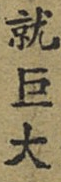就巨大
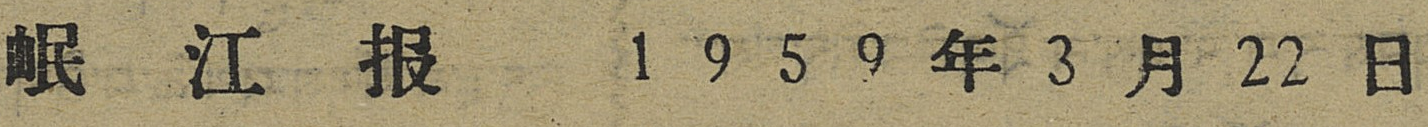岷 江 报 1 9 5 9 年 3 月 22 日
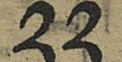༢༢
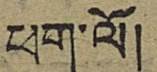ཕག་ལོ།
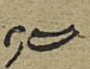༡༤
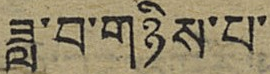ཟླ་བ་གཉིས་པ་
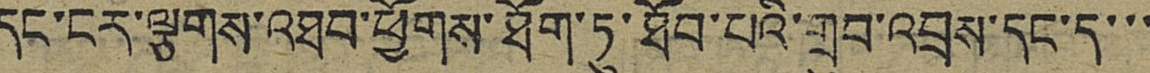དང་ངར་ལྕགས་འཐབ་ཕྱོགས་ཐོག་ཏུ་ཐོབ་པའི་གྲུབ་འབྲས་དང་ད་་་
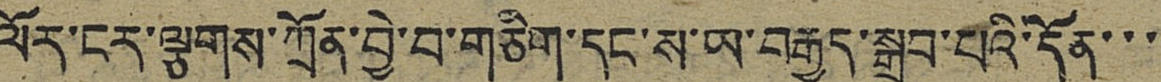ལོར་ངར་ལྕགས་ཀྲོན་བྱེ་བ་གཅིག་དང་ས་ཡ་བརྒྱད་སྒྲུབ་པའི་དོན་་་
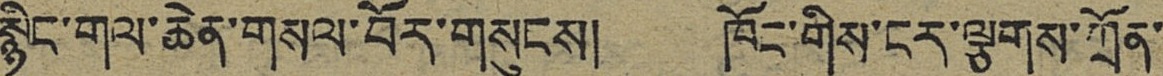སྙིང་གལ་ཆེན་གསལ་བོར་གསུངས། ཁོང་གིས་ངར་ལྕགས་ཀྲོན་
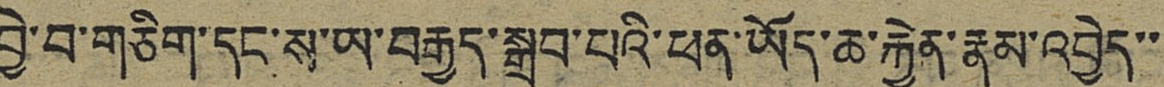བྱེ་བ་གཅིག་དང་ས་ཡ་བརྒྱད་སྒྲུབ་པའི་ཕན་ཡོད་ཆ་རྐྱེན་རྣམ་འབྱེད་་
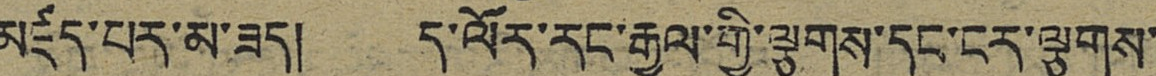མཛད་པར་མ་ཟད། ད་ལོར་རང་རྒྱལ་གྱི་ལྕགས་དང་ངར་ལྕགས་
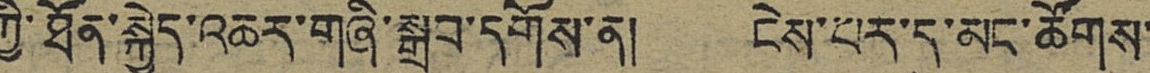ཀྱི་ཐོན་སྐྱེད་འཆར་གཞི་སྒྲུབ་དགོས་ན། ངེས་པར་དུ་མང་ཚོགས་
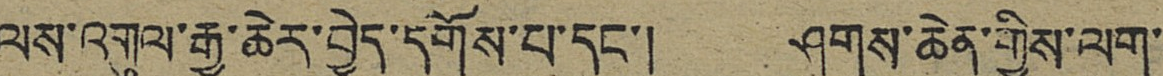ལས་འགུལ་རྒྱ་ཆེར་བྱེད་དགོས་པ་དང་། ཤུགས་ཆེན་གྱིས་ལག་
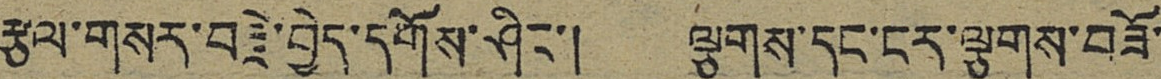རྩལ་གསར་བརྗེ་བྱེད་དགོས་ཤིང་། ལྕགས་དང་ངར་ལྕགས་བཟོ་
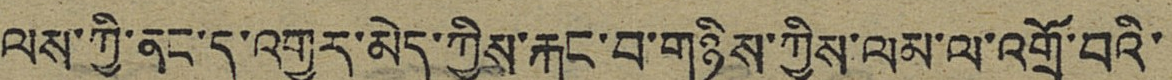ལས་ཀྱི་ནང་དུ་འགྱུར་མེད་ཀྱིས་རྐང་བ་གཉིས་ཀྱིས་ལམ་ལ་འགྲོ་བའི་
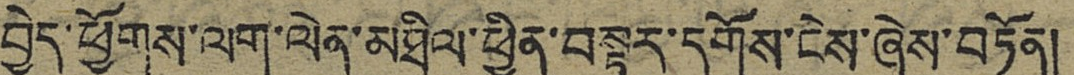བྱེད་ཕྱོགས་ལག་ལེན་མཐིལ་ཕྱིན་བསྟར་དགོས་ངེས་ཞེས་བཏོན།
